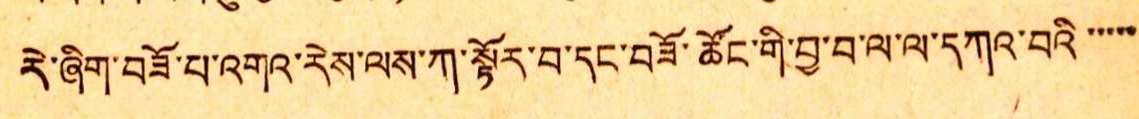རེ་ཞིག་བཟོ་པ་འགའ་རེས་ལས་ཀ་སྟོར་བ་དང་བཟོ་ཚོང་གི་བྱ་བ་ལ་ལ་དཀའ་བའི་་་་་
